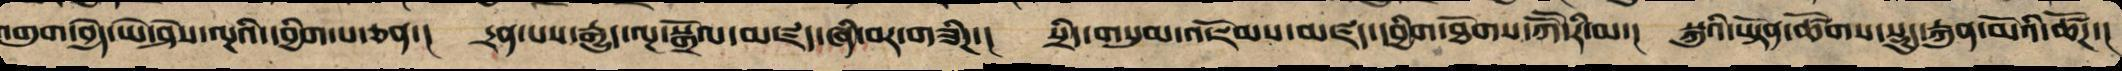འགུག་བྱེད་ཡེ་ཤེས་ལྔའི་དབྱིག་པ་ཅན་།  དྲན་པས་རྒྱུད་ལྔ་སྒྲོལ་མཛད་ཞི་བར་གཟིཌ་།  སྲིད་གསུམ་འཇོམས་མཛད་དབྱིག་ཐོགས་ཀཽ་རི་མ་།  སྐུའི་ཡྟོན་ཚོགས་སྡུད་རྐུན་མོའི་ཚོཌ་།
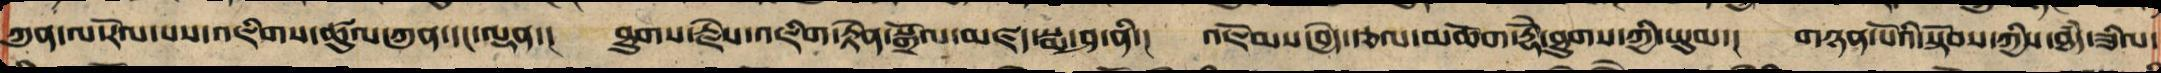ཀུན་ལ་རོལ་པས་འཇིགས་ཚུལ་ཀུན་དང་ལྡན་།  ཐུགས་རྗེས་འཇིག་རྟེན་སྒྲོལ་མཛད་སྨ་ཤ་ནི་།  འཇོམས་བྱེད་རྩལ་མཆོག་རྡོེ་ཐུགས་ཀྱི་ཡུམ་།  གཉེན་པོའི་སྟོབས་ཀྱིས་ཐཾད་ཟིལ་
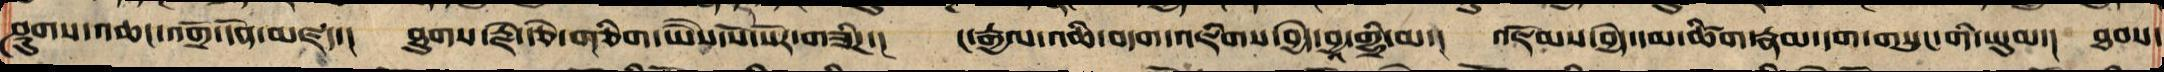ཤུགས་འཆང་འགྲོ་དོན་མཛད་།  ཐུགས་རྗེ་རྩེ་གཅིག་ཡཻས་སོ་སོར་གཟིཌ་།  ང་རྒྱལ་འཆི་བདག་འཇིགས་བྱེད་བྱཱ་གྷྲི་མ་།  འཇོམས་བྱེད་དམ་ཚིག་རྣམ་དག་གསུང་གི་ཡུམ་། ཐབས་
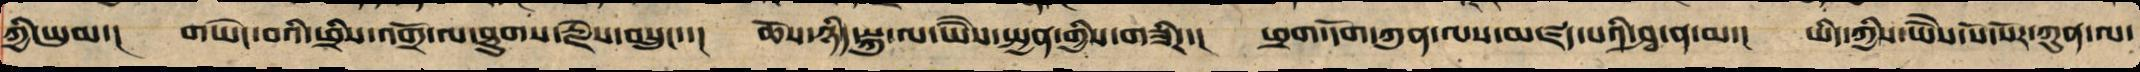ཀྱི་ཡུམ་།  གཡེང་པའི་ཕྲིས་འགྲོ་ལ་ཐུགས་རྗེས་བསྲུང་་།  ཆོས་ཉིད་སྐུ་ལ་ཡཻས་སྤྱན་གྱིས་གཟིཌ་།  ཕྲག་དོག་ཀུན་ལས་མཛད་པར་ཤྭ་ན་མ་།  ཡིད་ཀྱིས་ཡཻས་སོ་སོར་ཀུན་ལ་
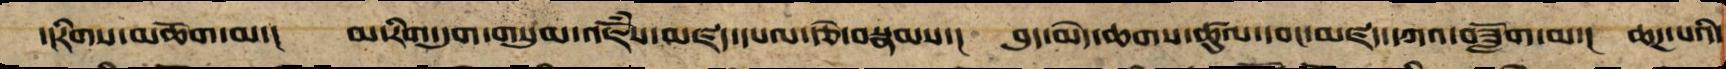་།རིགས་མཆོག་མ་།  མ་རིག་དུག་གསུམ་འཇོཾས་མཛད་དཔལ་རྩེ་བསྣམས་།  བུད་མེད་ཆགས་ཚུལ་དབང་མཛད་དཀའ་ཟློག་མ་།  ཆཌ་པའི་
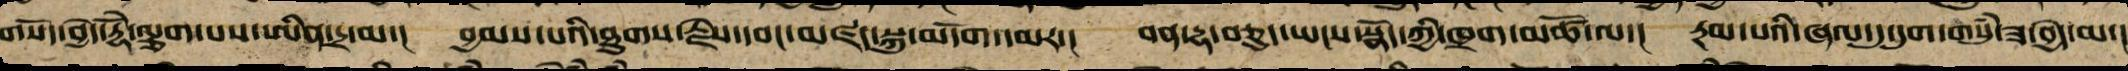གསོད་བྱེད་རྡོཻ་ལྕག་པས་ཨིན་དྲ་མ་།  བྱམས་པའི་ཐུགས་རྗེས་དབང་མཛད་སྐུ་མདོག་དམར་།  བན་དྷ་བཅུད་ཡངས་སྣོད་ཀྱི་ཁྲག་མཚོ་ལ་། རྔམ་པའི་ཞལ་དུ་དུག་གསུཾ་ཟ་བྱེད་མ་།
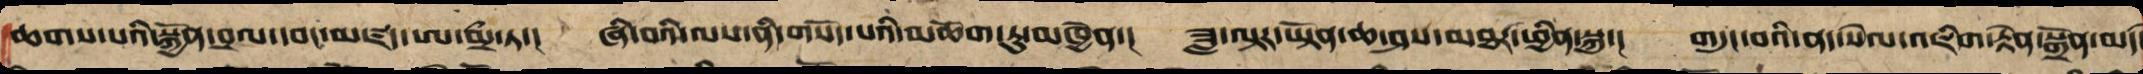ཆགས་པའི་སྐྱོན་བྲལ་དབང་མཛད་ཨ་མྲྀ་ཏ་།  ཞི་བའི་ལས་ནི་གསོད་པའི་མཆོག་ཏུ་མཁྱེན་།  ཟླ་ལྟར་ཡྟོན་ཆ་ཤས་མཐར་ཕྱིན་སྐུ་།  གདུང་བའི་ནད་སེལ་འཇིག་རྟེན་སྒྲོན་མཛད་
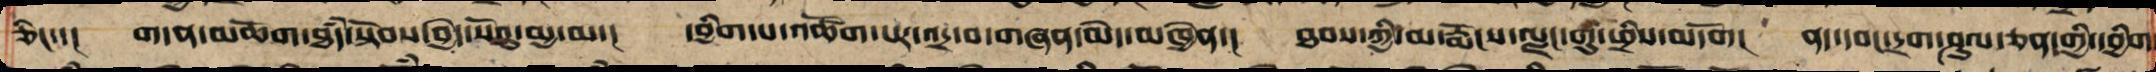ཅིང་་། གདན་མཆོག་ཐཾད་སྟོབས་བྱེད་སོའུ་མྱ་མ་།  དབྱིག་པས་འཚོག་པར་འདྲ་བ་གཞན་མེད་མཁྱེན་།  ཐབས་ཀྱི་མ་རྨོངས་ལྗང་གུ་ཕྲིས་མདོག། ནད་དབང་དྲག་ཤུལ་ཅན་གྱི་དབྱིག
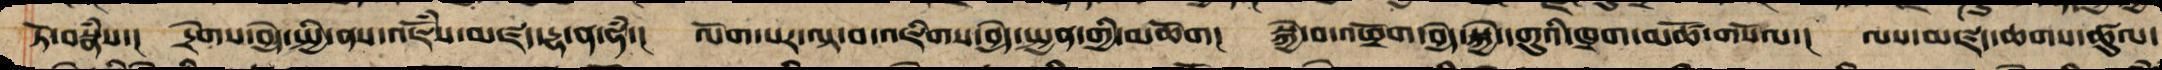ཏོ་བསྣཾས།  དྲེགས་བྱེད་སྤྱི་ནས་འཇོཾས་མཛད་དྷ་ན་ཧཾ་།  ལོག་པར་ལྟ་བ་འཇིགས་བྱེད་སྤྱན་གྱི་མཆོག།  སྐྱེ་བ་འཕྲོག་བྱེད་སྐྱེ་དགུའི་ཁྲག་མཚོ་གསོལ་།  ལས་མཛད་ཆགས་ཚུལ་
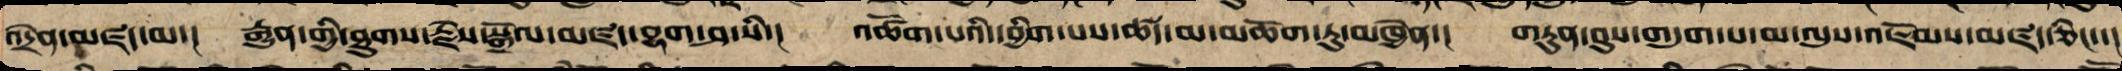འདྲེན་མཛད་མ་།  རྒྱུན་གྱི་ཐུགས་རྗེས་སྒྲོལ་མཛད་བྷག་ཤ་སི་། འཚོག་པའི་དབྱིག་པས་ཚད་མ་མཆོག་ཏུ་མཁྱེན་།  གཏུན་བུས་གདུག་པ་མ་ལུས་འཇོམས་མཛད་ཅིང་་།
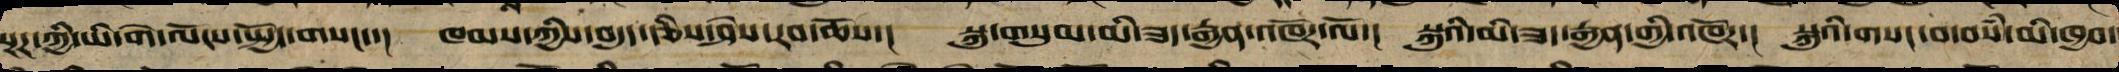སྔཌ་ཀྱི་ཡི་གེ་ལོངས་སྤྱོད་གསང་་། ཁམས་ཀྱི་བདུད་རྩིས་ཤེས་རབ་ཆོས་། སྐུ་གསུམ་མི་ཟད་རྒྱན་འཁོར་ལོ་། སྐུ་ཡི་མི་ཟད་རྒྱན་གྱི་འཁོར་། སྐུའི་གསང་བ་བསམ་མི་ཁྱབ་
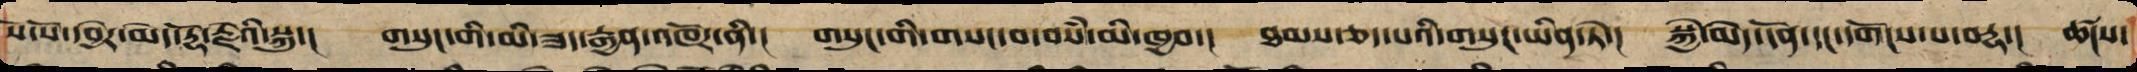སོ་སོ་དབྱེར་མེད་རྡོ་རྗེའི་སྐུ་།  གསུང་གི་མི་ཟད་རྒྱན་འཁོར་ནི་།  གསུང་གི་གསང་བ་བསཾ་མི་ཁྱབ་།  ཐམས་ཅད་པའི་གསུང་ཡིན་ཏེ་།  སྐྱེ་མེད་དོན་དང་དགོངས་པ་བརྡ་། ཚངས་
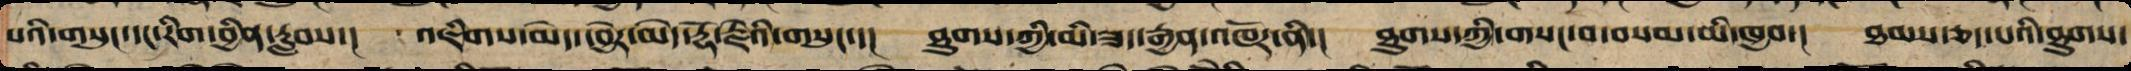པའི་གསུང་དང་རིག་བྱིན་རླབས་།  འཇིགས་མེད་དབྱེར་མེད་རྡོ་རྗེའི་གསུང་་།  ཐུགས་ཀྱི་མི་ཟད་རྒྱན་འཁོར་ནི་།  ཐུགས་ཀྱི་གསང་བ་བསམ་མི་ཁྱབ་།  ཐམས་ཅད་པའི་ཐུགས་
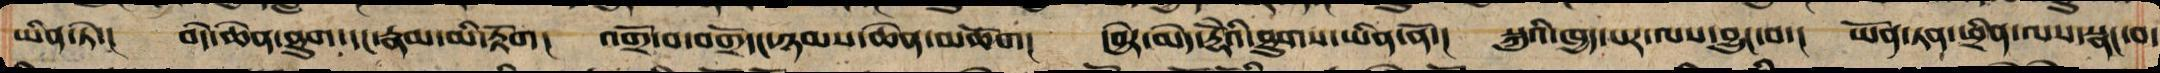ཡིན་ཏེ་།  བདེ་ཆེན་ཐུག་དང་རྣམ་མི་རྟོག། འགྲོ་བ་བགྲོདང་ཉམས་ཆེན་མཆོག དབྱེར་མེད་རྡོེའི་ཐུགས་ཡིན་ནོ་།  སྐུའི་ཁྱད་པར་ལས་བྱུང་བ་།  ཡོན་ཏན་ཕྲིན་ལས་སྣང་བ་
